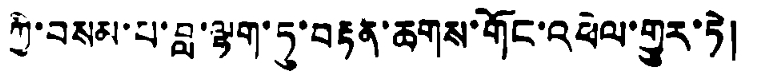ཀྱི་བསམ་པ་བླ་ལྷག་ཏུ་བརྟན་ཆགས་གོང་འཕེལ་གྱུར་ཏེ།
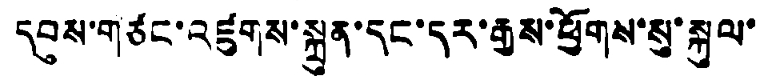དབུས་གཙང་འཛུགས་སྐྲུན་དང་དར་རྒྱས་ཕྱོགས་སུ་སྐུལ་
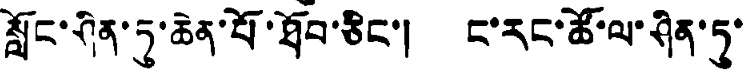སློང་ཤིན་ཏུ་ཆེན་པོ་ཐོབ་ཅིང་། ང་རང་ཚོ་ལ་ཤིན་ཏུ་
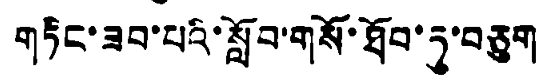གཏིང་ཟབ་པའི་སློབ་གསོ་ཐོབ་ཏུ་བཅུག
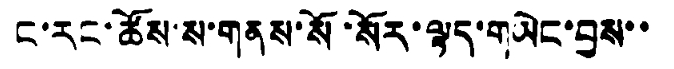ང་རང་ཚོས་ས་གནས་སོ་སོར་ལྟད་གཡེང་བྱས་་
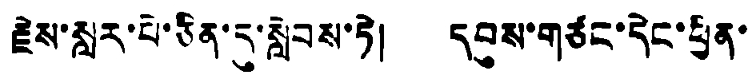རྗེས་སླར་པེ་ཅིན་དུ་སླེབས་ཏེ། དབུས་གཙང་དེང་ཕྱིན་
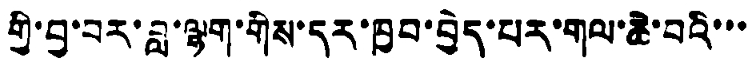གྱི་བྱ་བར་བླ་ལྷག་གིས་དར་ཁྱབ་བྱེད་པར་གལ་ཆེ་བའི་་་
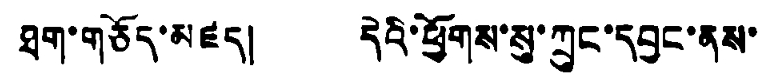ཐག་གཅོད་མཛད། དེའི་ཕྱོགས་སུ་ཀྲུང་དབྱང་ནས་
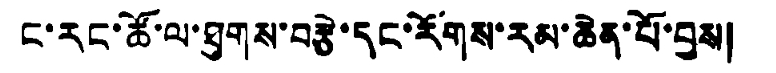ང་རང་ཚོ་ལ་ཐུགས་བརྩེ་དང་རོགས་རམ་ཆེན་པོ་བྱས།
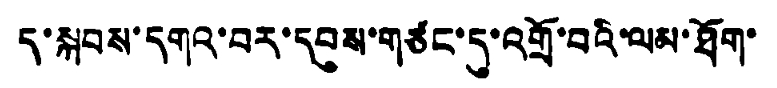ད་སྐབས་དགའ་བར་དབུས་གཙང་དུ་འགྲོ་བའི་ལམ་ཐོག་
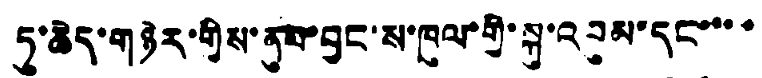ཏུ་ཆེད་གཉེར་གྱིས་ནུབ་བྱང་ས་ཁུལ་གྱི་སྐུ་འབུམ་དང་་་་
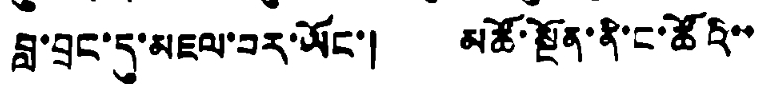བླ་བྲང་དུ་མཇལ་བར་ཡོང་། མཚོ་སྔོན་ནི་ང་ཚོའི་་
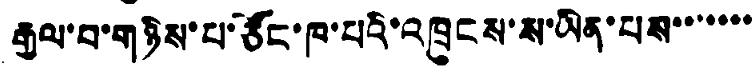རྒྱལ་བ་གཉིས་པ་ཙོང་ཁ་པའི་འཁྲུངས་ས་ཡིན་པས་་་་་་་་
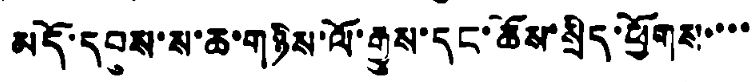མདོ་དབུས་ས་ཆ་གཉིས་ལོ་རྒྱུས་དང་ཆོས་སྲིད་ཕྱོགས་་་་
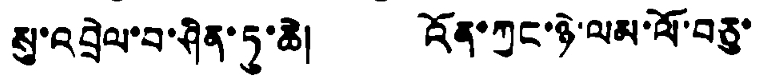སུ་འབྲེལ་བ་ཤིན་ཏུ་ཆེ། འོན་ཀྱང་ཉེ་ལམ་ལོ་བཅུ་
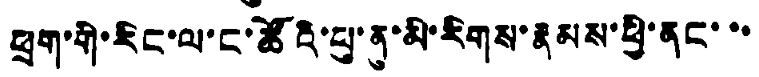ཕྲག་གི་རིང་ལ་ང་ཚོའི་ཕུ་ནུ་མི་རིགས་རྣམས་ཕྱི་ནང་་་
